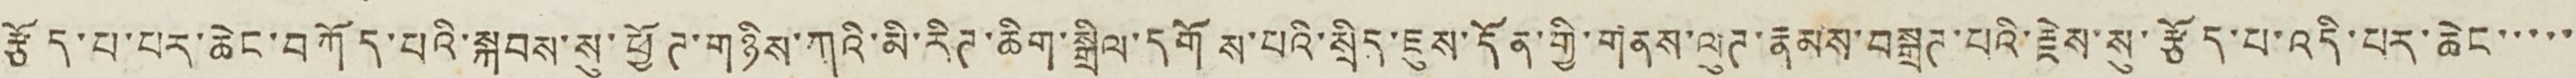རྩོད་པ་པར་ཆེང་བཀོད་པའི་སྐབས་སུ་ཕྱོཊ་གཉིས་ཀའི་མི་རིཊ་ཆིག་སྒྲིལ་དགོས་པའི་སྲིད་ཇུས་དོན་གྱི་གནས་ལུཊ་རྣམས་བསྒྲཊ་པའི་རྗེས་སུ་རྩོད་པ་འདི་པར་ཆེང་་་་་
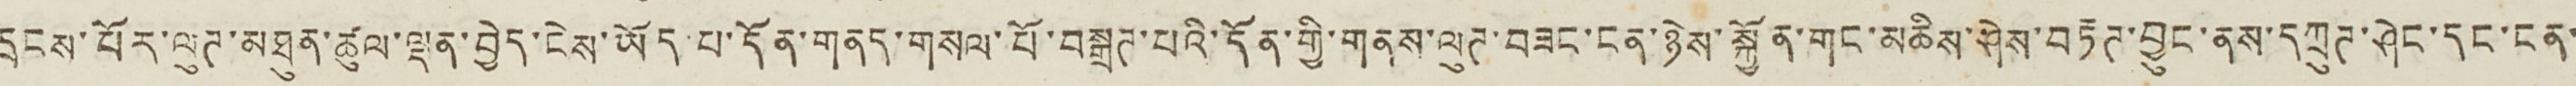དྲངས་པོར་ལུཊ་མཐུན་ཚུལ་ལྡན་བྱེད་ངེས་ཡོད་པ་དོན་གནད་གསལ་པོ་བསྒྲཊ་པའི་དོན་གྱི་གནས་ལུཊ་བཟང་ངན་ཉེས་སྐྱོན་གང་མཆིས་ཤེས་བརྟཊ་བྱུང་ནས་དཀྲུཊ་ཤེང་དང་ངན་
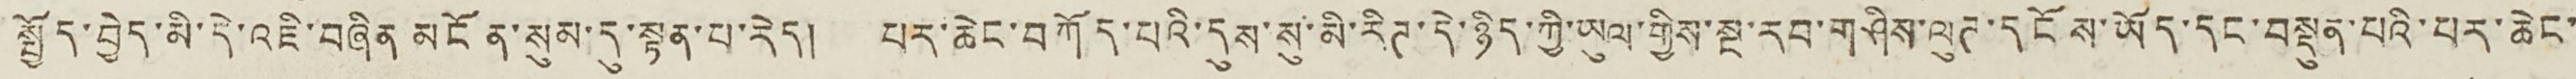སྤྱོད་བྱེད་མི་དེ་འཇི་བཞིན མངོན་སུམ་དུ་སྟན་པ་རེད། པར་ཆེང་བཀོད་པའི་དུས་སུ་མི་རིཊ་དེ་ཉིད་ཀྱི་ཡུལ་གྱིས་སྔ་རབ་གཤིས་ལུཊ་དངོས་ཡོད་དང་བསྡུན་པའི་པར་ཆེང་
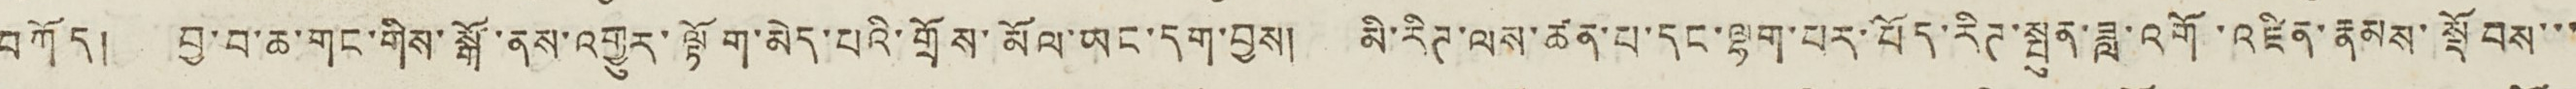བཀོད། བྱ་བ་ཆ་གང་གིས་སྒོ་ནས་འགྱུར་ལྟོག་མེད་པའི་གྲོས་མོལ་ཡང་དག་བྱས། མི་རིཊ་ལས་ཚན་པ་དང་ལྷག་པར་བོད་རིཊ་སྤུན་ཟླ་འགོ་འཛིན་རྣམས་སྡོབས་་་
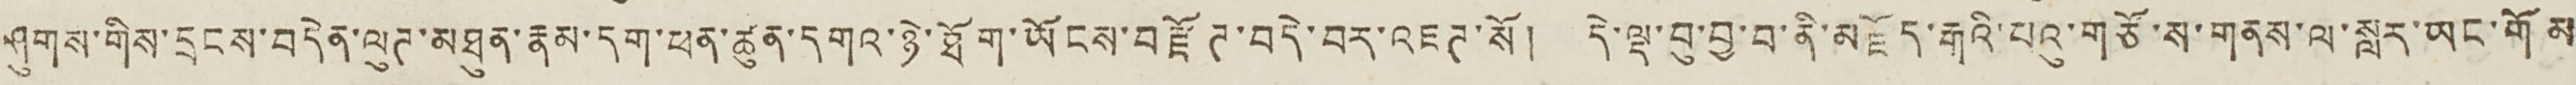ཤུགས་གིས་དྲངས་བདེན་ལུཊ་མཐུན་རྣམ་དག་ཕན་ཚུན་དགའ་ཉེ་ཐོག་ཡོངས་བརྫོཊ་བདེ་བར་འཇཊ་སོ། དེ་ལྡ་བུ་བྱ་བ་ནི་མཇོད་རྒའི་པའུ་གཙོ་ས་གནས་ལ་སླར་ཡང་གོམ
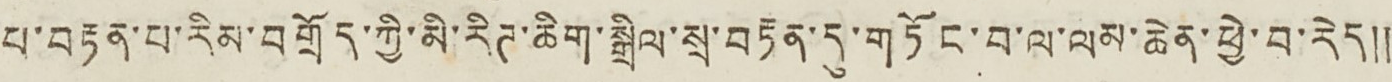པ་བརྟན་པ་རིམ་བགྲོད་ཀྱི་མི་རིཊ་ཆིག་སྒྲིལ་སྲ་བརྟན་དུ་གཏོང་བ་ལ་ལམ་ཆེན་ཕྱེ་བ་རེད༎
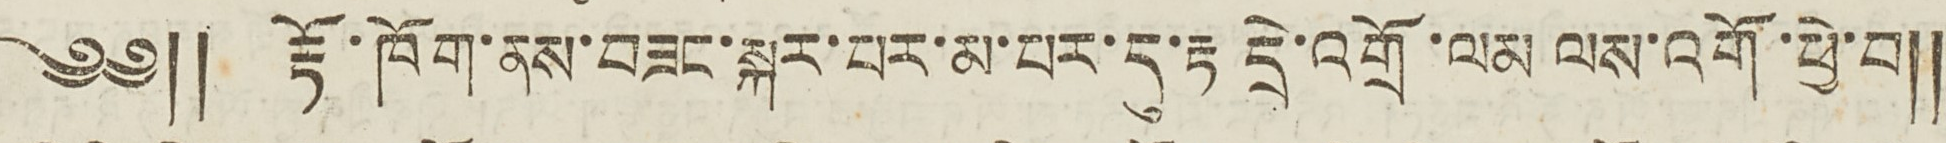༄༅༎ རྟོ་ཁོག་ནས་བཟང་སྐར་པར་མ་པར་དུ་རྟ དྲེ་འགྲོ་ལམ ལས་འགོ་ཕྱེ་བ༎
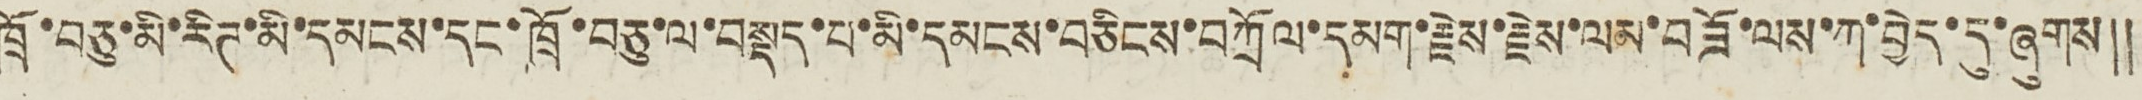ཁྲོ་བཅུ་མི་རིཊ་མི་དམངས་དང་ཁྲོ་བཅུ་ལ་བསྡད་པ་མི་དམངས་བཅིངས་བཀྲོལ་དམག་རྗེས་རྗེས་ལམ་བཟོ་ལས་ཀ་བྱེད་དུ་ཞུགས༎
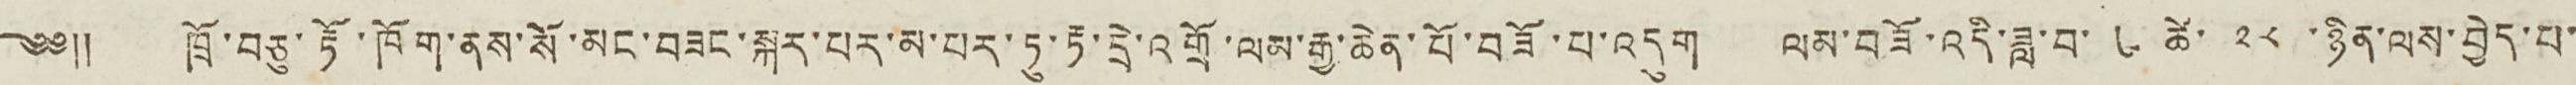༄༅༎ ཁྲོ་བཅུ་རྟོ་ཁོག་ནས་སོ་མང་བཟང་སྐར་པར་མ་པར་ཏུ་རྟ་དྲེ་འགྲོ་ལམ་རྒྱ་ཆེན་པོ་བཟོ་པ་འདུག ལམ་བཟོ་འདི་ཟླ་བ་ ༦ ཚེ་ ༢༨ ་ཉིན་ལས་བྱེད་པ་
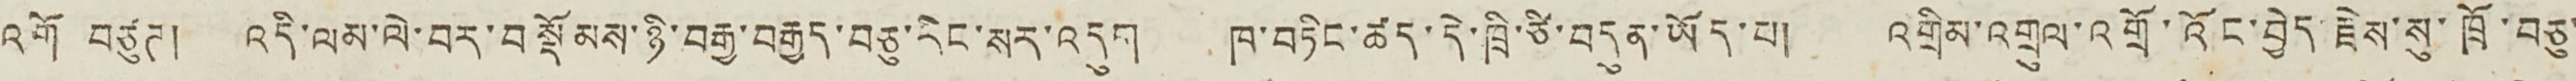འགོ བཙུཊ། འདི་ལམ་ལེ་བར་བསྡོམས་ཉི་བརྒྱ་བརྒྱད་བཅུ་དེང་སར་འདུག ཁ་བཏིང་ཚད་དེ་ཁྲི་ཙི་བདུན་ཡོད་པ། འགྲིམ་འགྲུལ་འགྲོ་འོང་བྱེད རྗེས་སུ་ཁྲོ་བཅུ་
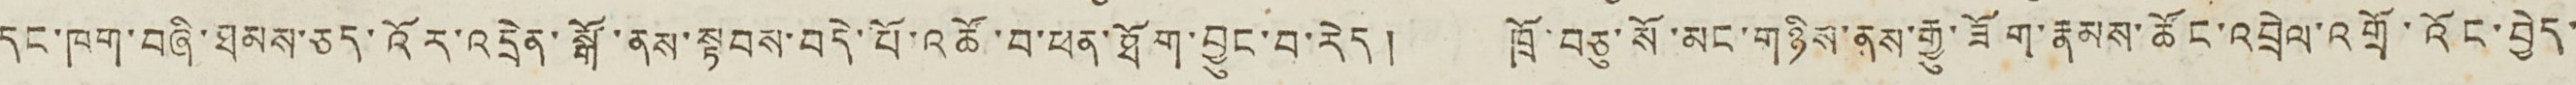དང་ཁག་བཞི་ཐམས་ཅད་འོར་འདྲེན་སྒོ་ནས་སྟབས་བདེ་པོ་འཚོ་བ་ཕན་ཐོག་བྱུང་བ་རེད། ཁྲོ་བཅུ་སོ་མང་གཉིས་ནས་རྒྱུ་ཟོག་རྣམས་ཚོན་འབྲེལ་འགྲོ་འོང་བྱེད་
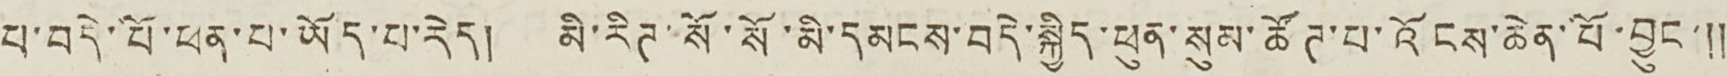པ་བདེ་པོ་ཕན་པ་ཡོད་པ་རེད། མི་རིཊ་སོ་སོ་མི་དམངས་བདེ་སྐྱིད་ཕུན་སུམ་ཚོཊ་པ་འོངས་ཆེན་པོ་བྱུང་༎
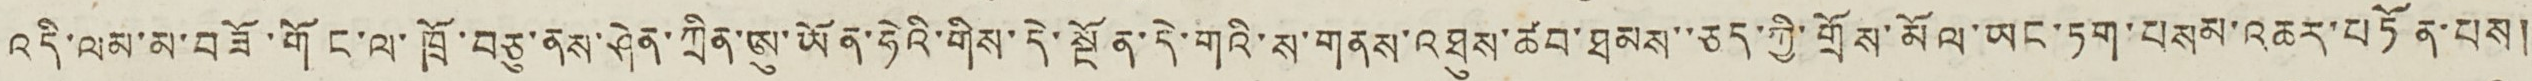འདི་ལམ་མ་བཟོ་གོང་ལ་ཁྲོ་བཅུ་ནས་ཤེན་ཀྲིན་ཨུ་ཡོན་ཧེའི་གིས་དེ་སྔོན་དེ་གའི་ས་གནས་འཐུས་ཚབ་ཐམས་་ཅད་ཀྱི་གྲོས་མོལ་ཡང་ཏག་བསམ་འཆར་བཏོན་པས།
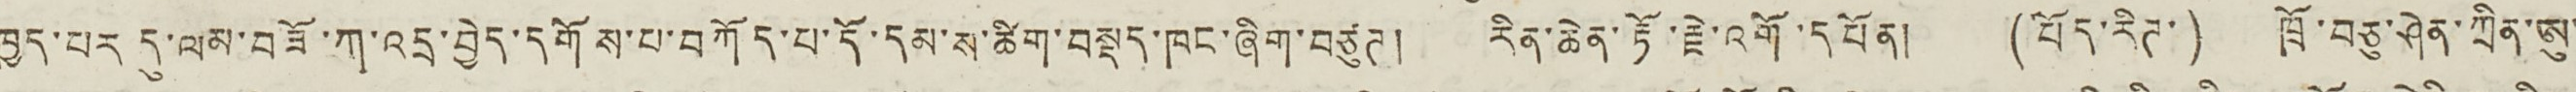ཁྱད་པར དུ་ལམ་བཟོ་ཀ་འདྲ་བྱེད་དགོས་པ་བཀོད་པ་དོ་དམ་ས་ཚིག་བསྡད་ཁང་ཞིག་བཙུཊ། རིན་ཆེན་རྟོ་རྗེ་འགོ་དཔོན། (བོད་རིཊ་) ཁྲོ་བཅུ་ཤེན་ཀྲིན་ཨུ་
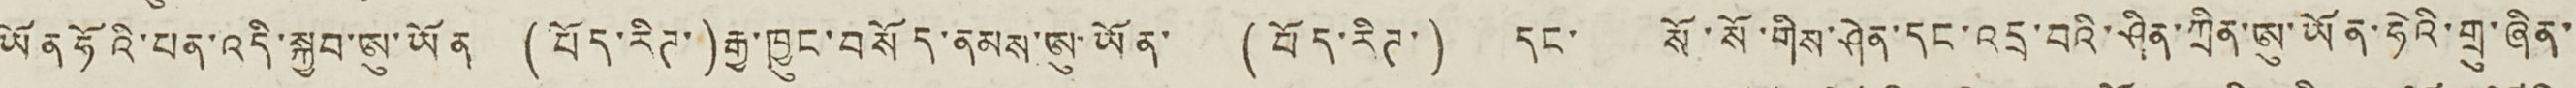ཡོན ཧོའི་པན་འདི་སྐྱབ་ཨུ་ཡོན (བོད་རིཊ་)རྒྱ་ཁྱུང་བསོད་ནམས་ཨུ་ཡོན་ (བོད་རིཊ་) དང་ སོ་སོ་གིས་ཤེན་དང་འདྲ་བའི་ཤིན་ཀྲིན་ཨུ་ཡོན་ཧེའི་གྲུ་ཞིན་
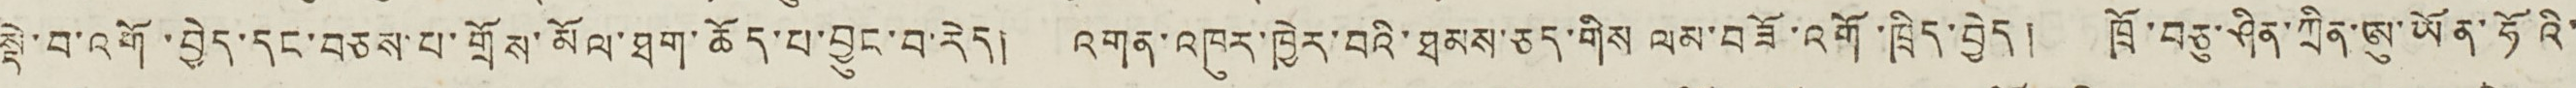སྡེ་བ་འགོ་བྱེད་དང་བཅས་པ་གྲོས་མོལ་ཐག་ཆོད་པ་བྱུང་བ་རེད། འགན་འཁུར་ཁྱེར་བའི་ཐམས་ཅད་གིས ལམ་བཟོ་འགོ་ཁྲིད་བྱེད། ཁྲོ་བཅུ་ཤིན་ཀྲིན་ཨུ་ཡོན་ཧོའི་
